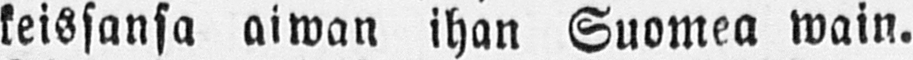keissansa aiwan ihan Suomea wain.
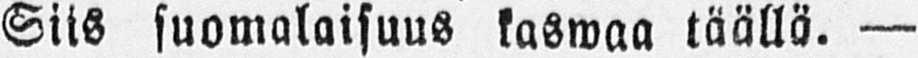Siis suomalaisuus kaswaa täällä. —
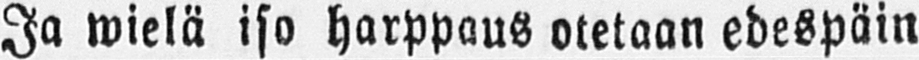Ja wielä iso harppaus otetaan edespäin
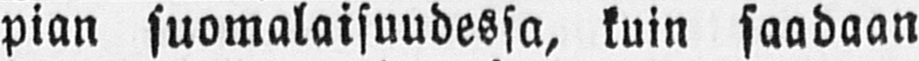pian suomalaisuudessa, kuin saadaan
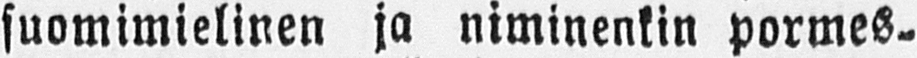suomimielinen ja niminenkin pormes-
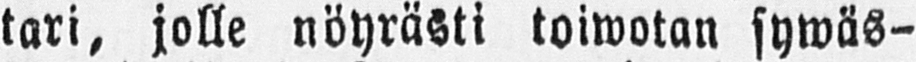tari, jolle nöyrästi toiwotan sywäs-
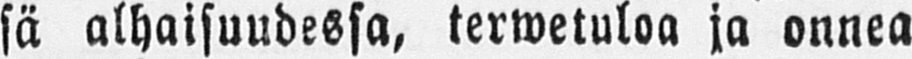sä alhaisuudessa, terwetuloa ja onnea
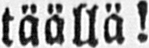täällä!
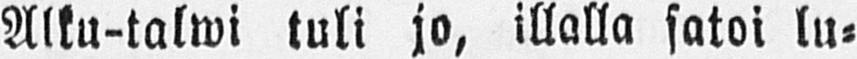Alku-talwi tuli jo, illalla satoi lu-
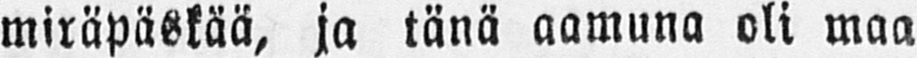miräpäskää, ja tänä aamuna oli maa
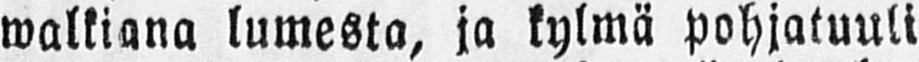walkiana lumesta, ja kylmä pohjatuuli
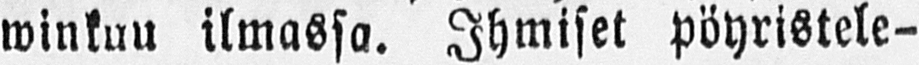winkuu ilmassa. Ihmiset pöyristele-
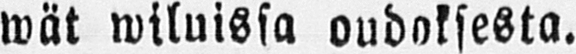wät wiluissa oudoksesta.
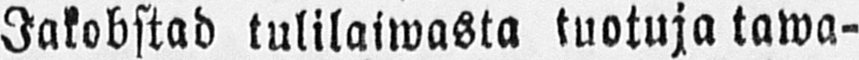Jakobstad tulilaiwasta tuotuja tawa-
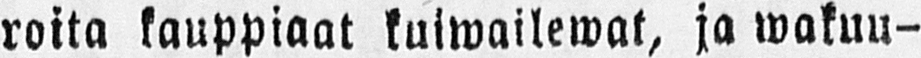roita kauppiaat kuiwailewat, ja wakuu-
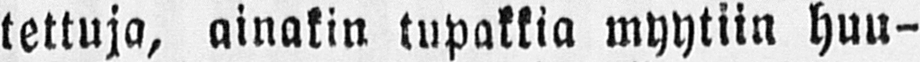tettuja, ainakin tupakkia myytiin huu-
